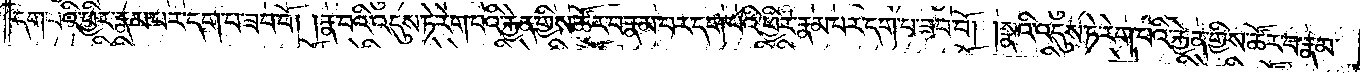དག་པའི་ཕྱིར་རྣམ་པར་དག་པ་ཟབ་བོ། །རྣ་བའི་འདུས་ཏེ་རེག་པའི་རྐྱེན་གྱིས་ཚོར་བ་རྣམ་པར་དག་པའི་ཕྱིར་རྣམ་པར་དག་པ་ཟབ་བོ། །སྣའི་འདུས་ཏེ་རེག་པའི་རྐྱེན་གྱིས་ཚོར་བ་རྣམ་
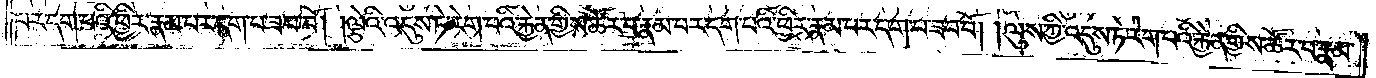པར་དག་པའི་ཕྱིར་རྣམ་པར་དག་པ་ཟབ་བོ། །ལྕེའི་འདུས་ཏེ་རེག་པའི་རྐྱེན་གྱིས་ཚོར་བ་རྣམ་པར་དག་པའི་ཕྱིར་རྣམ་པར་དག་པ་ཟབ་བོ། །ལུས་ཀྱི་འདུས་ཏེ་རེག་པའི་རྐྱེན་གྱིས་ཚོར་བ་རྣམ་
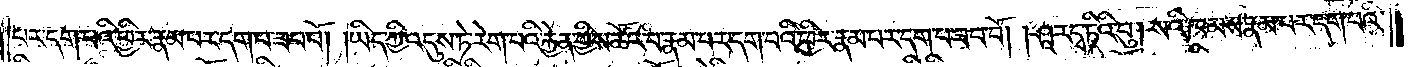པར་དག་པའི་ཕྱིར་རྣམ་པར་དག་པ་ཟབ་བོ། །ཡིད་ཀྱི་འདུས་ཏེ་རེག་པའི་རྐྱེན་གྱིས་ཚོར་བ་རྣམ་པར་དག་པའི་ཕྱིར་རྣམ་པར་དག་པ་ཟབ་བོ། །ཤཱ་ར་དྭ་ཏིའི་བུ། སའི་ཁམས་རྣམ་པར་དག་པའི་
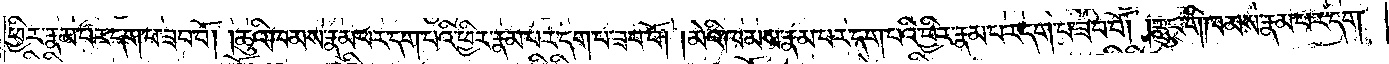ཕྱིར་རྣམ་པར་དག་པ་ཟབ་བོ། །ཆུའི་ཁམས་རྣམ་པར་དག་པའི་ཕྱིར་རྣམ་པར་དག་པ་ཟབ་བོ། །མེའི་ཁམས་རྣམ་པར་དག་པའི་ཕྱིར་རྣམ་པར་དག་པ་ཟབ་བོ། །རླུང་གི་ཁམས་རྣམ་པར་དག་
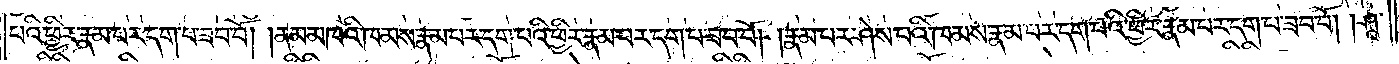པའི་ཕྱིར་རྣམ་པར་དག་པ་ཟབ་བོ། །ནམ་མཁའི་ཁམས་རྣམ་པར་དག་པའི་ཕྱིར་རྣམ་པར་དག་པ་ཟབ་བོ། །རྣམ་པར་ཤེས་པའི་ཁམས་རྣམ་པར་དག་པའི་ཕྱིར་རྣམ་པར་དག་པ་ཟབ་བོ། །ཤཱ་
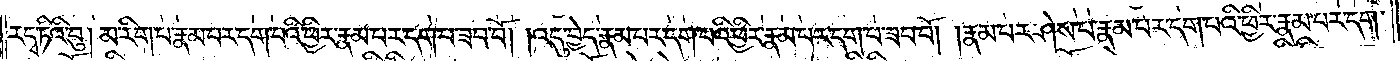ར་དྭ་ཏིའི་བུ། མ་རིག་པ་རྣམ་པར་དག་པའི་ཕྱིར་རྣམ་པར་དག་པ་ཟབ་བོ། །འདུ་བྱེད་རྣམ་པར་དག་པའི་ཕྱིར་རྣམ་པར་དག་པ་ཟབ་བོ། །རྣམ་པར་ཤེས་པ་རྣམ་པར་དག་པའི་ཕྱིར་རྣམ་པར་དག་
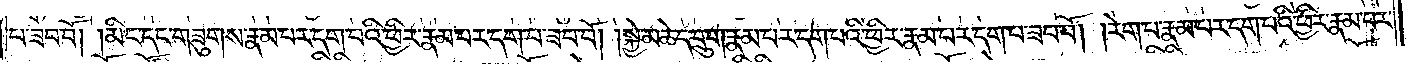པ་ཟབ་བོ། །མིང་དང་གཟུགས་རྣམ་པར་དག་པའི་ཕྱིར་རྣམ་པར་དག་པ་ཟབ་བོ། །སྐྱེ་མཆེད་དྲུག་རྣམ་པར་དག་པའི་ཕྱིར་རྣམ་པར་དག་པ་ཟབ་བོ། །རེག་པ་རྣམ་པར་དག་པའི་ཕྱིར་རྣམ་པར་
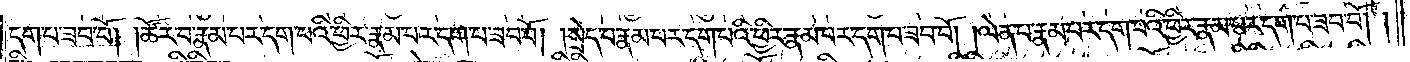དག་པ་ཟབ་བོ། །ཚོར་བ་རྣམ་པར་དག་པའི་ཕྱིར་རྣམ་པར་དག་པ་ཟབ་བོ། །སྲེད་པ་རྣམ་པར་དག་པའི་ཕྱིར་རྣམ་པར་དག་པ་ཟབ་བོ། །ལེན་པ་རྣམ་པར་དག་པའི་ཕྱིར་རྣམ་པར་དག་པ་ཟབ་བོ། །
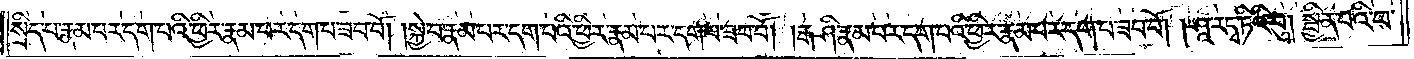སྲིད་པ་རྣམ་པར་དག་པའི་ཕྱིར་རྣམ་པར་དག་པ་ཟབ་བོ། །སྐྱེ་བ་རྣམ་པར་དག་པའི་ཕྱིར་རྣམ་པར་དག་པ་ཟབ་བོ། །རྒ་ཤི་རྣམ་པར་དག་པའི་ཕྱིར་རྣམ་པར་དག་པ་ཟབ་བོ། །ཤཱ་ར་དྭ་ཏིའི་བུ། སྦྱིན་པའི་ཕ་
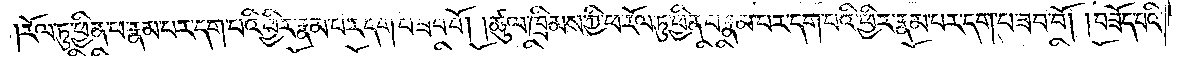རོལ་ཏུ་ཕྱིན་པ་རྣམ་པར་དག་པའི་ཕྱིར་རྣམ་པར་དག་པ་ཟབ་བོ། །ཚུལ་ཁྲིམས་ཀྱི་ཕ་རོལ་ཏུ་ཕྱིན་པ་རྣམ་པར་དག་པའི་ཕྱིར་རྣམ་པར་དག་པ་ཟབ་བོ། །བཟོད་པའི་
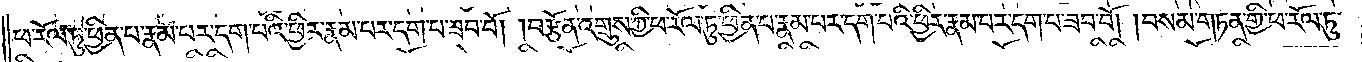ཕ་རོལ་ཏུ་ཕྱིན་པ་རྣམ་པར་དག་པའི་ཕྱིར་རྣམ་པར་དག་པ་ཟབ་བོ། །བརྩོན་འགྲུས་ཀྱི་ཕ་རོལ་ཏུ་ཕྱིན་པ་རྣམ་པར་དག་པའི་ཕྱིར་རྣམ་པར་དག་པ་ཟབ་བོ། །བསམ་གཏན་གྱི་ཕ་རོལ་ཏུ་
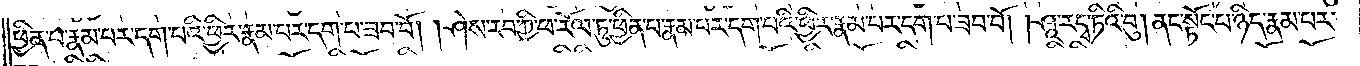ཕྱིན་པ་རྣམ་པར་དག་པའི་ཕྱིར་རྣམ་པར་དག་པ་ཟབ་བོ། །ཤེས་རབ་ཀྱི་ཕ་རོལ་ཏུ་ཕྱིན་པ་རྣམ་པར་དག་པའི་ཕྱིར་རྣམ་པར་དག་པ་ཟབ་བོ། །ཤཱ་ར་དྭ་ཏིའི་བུ། ནང་སྟོང་པ་ཉིད་རྣམ་པར་
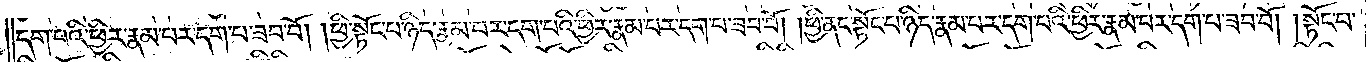དག་པའི་ཕྱིར་རྣམ་པར་དག་པ་ཟབ་བོ། །ཕྱི་སྟོང་པ་ཉིད་རྣམ་པར་དག་པའི་ཕྱིར་རྣམ་པར་དག་པ་ཟབ་བོ། །ཕྱི་ནང་སྟོང་པ་ཉིད་རྣམ་པར་དག་པའི་ཕྱིར་རྣམ་པར་དག་པ་ཟབ་བོ། །སྟོང་པ་
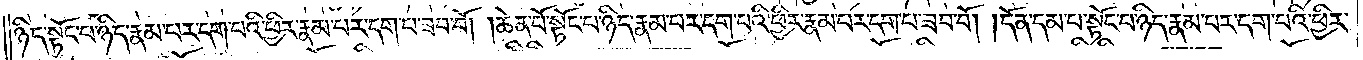ཉིད་སྟོང་པ་ཉིད་རྣམ་པར་དག་པའི་ཕྱིར་རྣམ་པར་དག་པ་ཟབ་བོ། །ཆེན་པོ་སྟོང་པ་ཉིད་རྣམ་པར་དག་པའི་ཕྱིར་རྣམ་པར་དག་པ་ཟབ་བོ། །དོན་དམ་པ་སྟོང་པ་ཉིད་རྣམ་པར་དག་པའི་ཕྱིར་
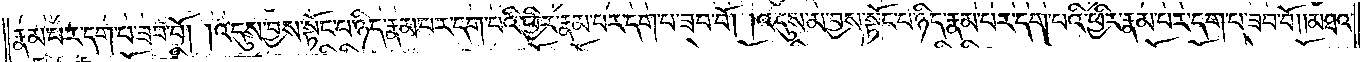རྣམ་པར་དག་པ་ཟབ་བོ། །འདུས་བྱས་སྟོང་པ་ཉིད་རྣམ་པར་དག་པའི་ཕྱིར་རྣམ་པར་དག་པ་ཟབ་བོ། །འདུས་མ་བྱས་སྟོང་པ་ཉིད་རྣམ་པར་དག་པའི་ཕྱིར་རྣམ་པར་དག་པ་ཟབ་བོ། །མཐའ་
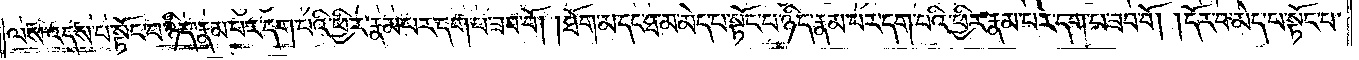ལས་འདས་པ་སྟོང་པ་ཉིད་རྣམ་པར་དག་པའི་ཕྱིར་རྣམ་པར་དག་པ་ཟབ་བོ། །ཐོག་མ་དང་ཐ་མ་མེད་པ་སྟོང་པ་ཉིད་རྣམ་པར་དག་པའི་ཕྱིར་རྣམ་པར་དག་པ་ཟབ་བོ། །དོར་བ་མེད་པ་སྟོང་པ་
